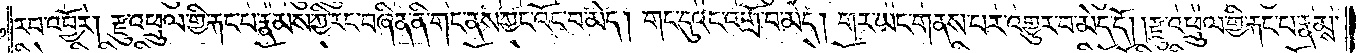རབ་འབྱོར། རྫུ་འཕྲུལ་གྱི་རྐང་པ་རྣམས་ཀྱི་རང་བཞིན་ནི་གང་ནས་ཀྱང་འོང་བ་མེད། གང་དུའང་འགྲོ་བ་མེད། གར་ཡང་གནས་པར་འགྱུར་བ་མེད་དོ། །རྫུ་འཕྲུལ་གྱི་རྐང་པ་རྣམས་
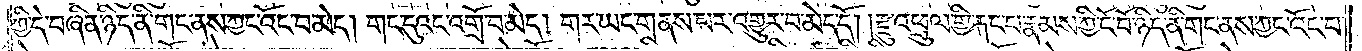ཀྱི་དེ་བཞིན་ཉིད་ནི་གང་ནས་ཀྱང་འོང་བ་མེད། གང་དུའང་འགྲོ་བ་མེད། གར་ཡང་གནས་པར་འགྱུར་བ་མེད་དོ། །རྫུ་འཕྲུལ་གྱི་རྐང་པ་རྣམས་ཀྱི་ངོ་བོ་ཉིད་ནི་གང་ནས་ཀྱང་འོང་བ་
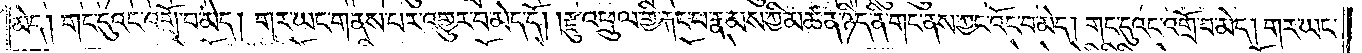མེད། གང་དུའང་འགྲོ་བ་མེད། གར་ཡང་གནས་པར་འགྱུར་བ་མེད་དོ། །རྫུ་འཕྲུལ་གྱི་རྐང་པ་རྣམས་ཀྱི་མཚན་ཉིད་ནི་གང་ནས་ཀྱང་འོང་བ་མེད། གང་དུའང་འགྲོ་བ་མེད། གར་ཡང་
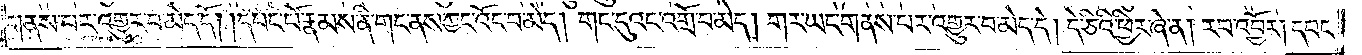གནས་པར་འགྱུར་བ་མེད་དོ། །དབང་པོ་རྣམས་ནི་གང་ནས་ཀྱང་འོང་བ་མེད། གང་དུའང་འགྲོ་བ་མེད། གར་ཡང་གནས་པར་འགྱུར་བ་མེད་དེ། དེ་ཅིའི་ཕྱིར་ཞེ་ན། རབ་འབྱོར། དབང་
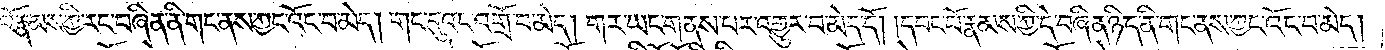པོ་རྣམས་ཀྱི་རང་བཞིན་ནི་གང་ནས་ཀྱང་འོང་བ་མེད། གང་དུའང་འགྲོ་བ་མེད། གར་ཡང་གནས་པར་འགྱུར་བ་མེད་དོ། །དབང་པོ་རྣམས་ཀྱི་དེ་བཞིན་ཉིད་ནི་གང་ནས་ཀྱང་འོང་བ་མེད།
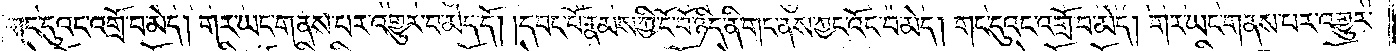གང་དུའང་འགྲོ་བ་མེད། གར་ཡང་གནས་པར་འགྱུར་བ་མེད་དོ། །དབང་པོ་རྣམས་ཀྱི་ངོ་བོ་ཉིད་ནི་གང་ནས་ཀྱང་འོང་བ་མེད། གང་དུའང་འགྲོ་བ་མེད། གར་ཡང་གནས་པར་འགྱུར་
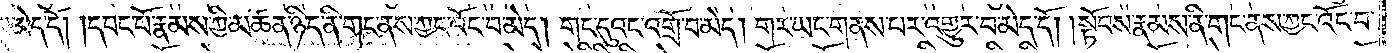བ་མེད་དོ། །དབང་པོ་རྣམས་ཀྱི་མཚན་ཉིད་ནི་གང་ནས་ཀྱང་འོང་བ་མེད། གང་དུའང་འགྲོ་བ་མེད། གར་ཡང་གནས་པར་འགྱུར་བ་མེད་དོ། །སྟོབས་རྣམས་ནི་གང་ནས་ཀྱང་འོང་བ་
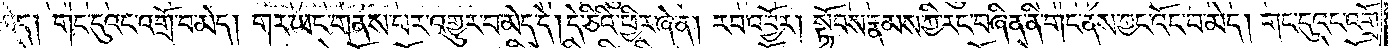མེད། གང་དུའང་འགྲོ་བ་མེད། གར་ཡང་གནས་པར་འགྱུར་བ་མེད་དེ། དེ་ཅིའི་ཕྱིར་ཞེ་ན། རབ་འབྱོར། སྟོབས་རྣམས་ཀྱི་རང་བཞིན་ནི་གང་ནས་ཀྱང་འོང་བ་མེད། གང་དུའང་འགྲོ་
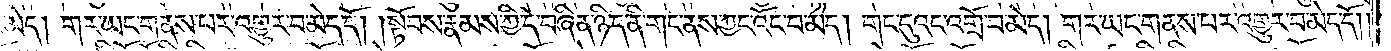བ་མེད། གར་ཡང་གནས་པར་འགྱུར་བ་མེད་དོ། །སྟོབས་རྣམས་ཀྱི་དེ་བཞིན་ཉིད་ནི་གང་ནས་ཀྱང་འོང་བ་མེད། གང་དུའང་འགྲོ་བ་མེད། གར་ཡང་གནས་པར་འགྱུར་བ་མེད་དོ། །
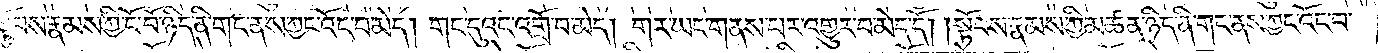སྟོབས་རྣམས་ཀྱི་ངོ་བོ་ཉིད་ནི་གང་ནས་ཀྱང་འོང་བ་མེད། གང་དུའང་འགྲོ་བ་མེད། གར་ཡང་གནས་པར་འགྱུར་བ་མེད་དོ། །སྟོབས་རྣམས་ཀྱི་མཚན་ཉིད་ནི་གང་ནས་ཀྱང་འོང་བ་
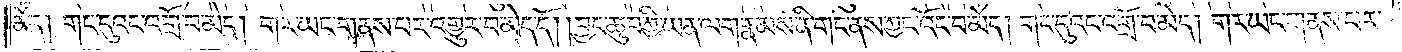མེད། གང་དུའང་འགྲོ་བ་མེད། གར་ཡང་གནས་པར་འགྱུར་བ་མེད་དོ། །བྱང་ཆུབ་ཀྱི་ཡན་ལག་རྣམས་ནི་གང་ནས་ཀྱང་འོང་བ་མེད། གང་དུའང་འགྲོ་བ་མེད། གར་ཡང་གནས་པར་
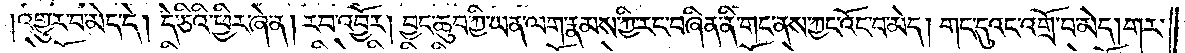འགྱུར་བ་མེད་དེ། དེ་ཅིའི་ཕྱིར་ཞེ་ན། རབ་འབྱོར། བྱང་ཆུབ་ཀྱི་ཡན་ལག་རྣམས་ཀྱི་རང་བཞིན་ནི་གང་ནས་ཀྱང་འོང་བ་མེད། གང་དུའང་འགྲོ་བ་མེད། གར་
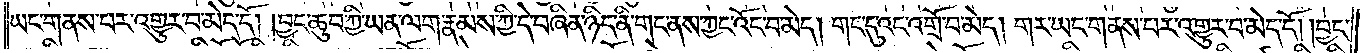ཡང་གནས་པར་འགྱུར་བ་མེད་དོ། །བྱང་ཆུབ་ཀྱི་ཡན་ལག་རྣམས་ཀྱི་དེ་བཞིན་ཉིད་ནི་གང་ནས་ཀྱང་འོང་བ་མེད། གང་དུའང་འགྲོ་བ་མེད། གར་ཡང་གནས་པར་འགྱུར་བ་མེད་དོ། །བྱང་
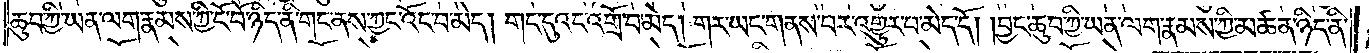ཆུབ་ཀྱི་ཡན་ལག་རྣམས་ཀྱི་ངོ་བོ་ཉིད་ནི་གང་ནས་ཀྱང་འོང་བ་མེད། གང་དུའང་འགྲོ་བ་མེད། གར་ཡང་གནས་པར་འགྱུར་བ་མེད་དོ། །བྱང་ཆུབ་ཀྱི་ཡན་ལག་རྣམས་ཀྱི་མཚན་ཉིད་ནི་
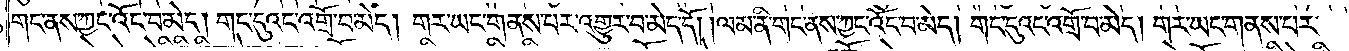གང་ནས་ཀྱང་འོང་བ་མེད། གང་དུའང་འགྲོ་བ་མེད། གར་ཡང་གནས་པར་འགྱུར་བ་མེད་དོ། །ལམ་ནི་གང་ནས་ཀྱང་འོང་བ་མེད། གང་དུའང་འགྲོ་བ་མེད། གར་ཡང་གནས་པར་
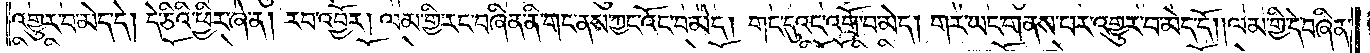འགྱུར་བ་མེད་དེ། དེ་ཅིའི་ཕྱིར་ཞེ་ན། རབ་འབྱོར། ལམ་གྱི་རང་བཞིན་ནི་གང་ནས་ཀྱང་འོང་བ་མེད། གང་དུའང་འགྲོ་བ་མེད། གར་ཡང་གནས་པར་འགྱུར་བ་མེད་དོ། །ལམ་གྱི་དེ་བཞིན་
